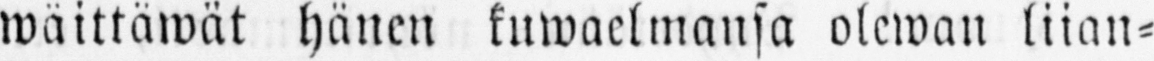wäittäwät hänen kuwaelmansa olewan liian-
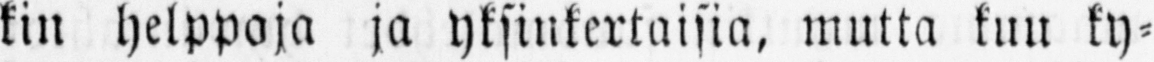kin helppoja ja yksinkertaisia, mutta kuu ky-
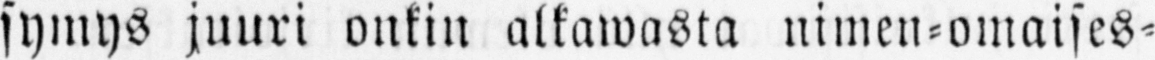symys juuri onkin alkawasta nimen-omaises-
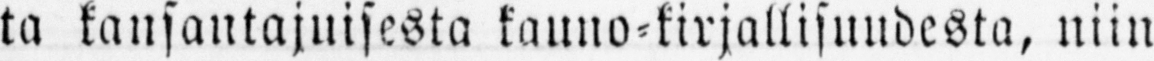ta kansantajuisesta kauno-kirjallisuudesta, niin
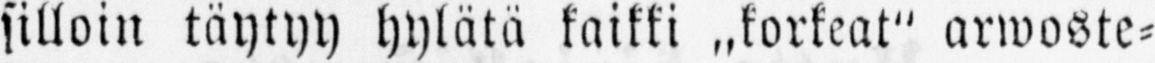silloin täytyy hylätä kaikki „korkeat" arwoste-
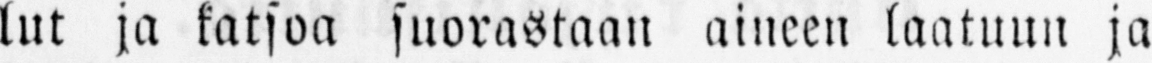lut ja katsoa suorastaan aineen laatuun ja
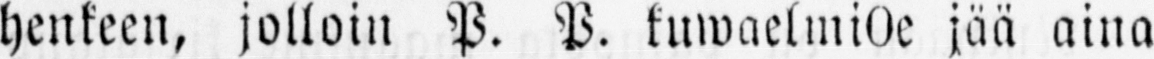henkeen, jolloin P. P. kuwaelmiOe jää aina
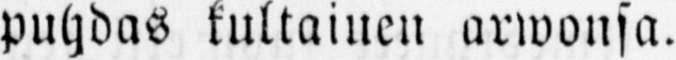puhdas kultainen arwonsa.
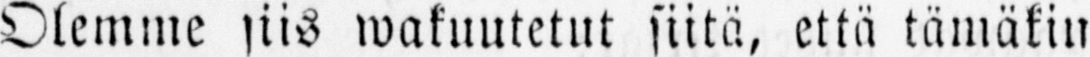Olemme siis wakuutetut siitä, että tämäkin
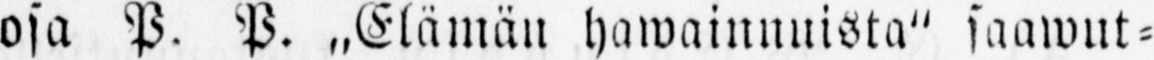osa P. P. ..Elämän hawainnuista" saawut-
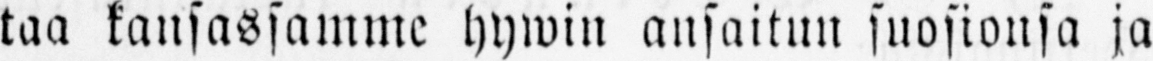taa kansassamme hywin ansaitun suosionsa ja
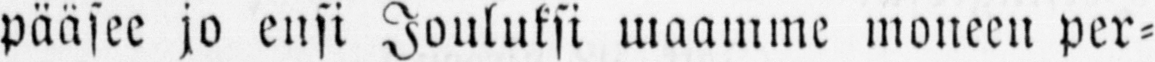pääsee jo ensi Jouluksi maamme moneen per-
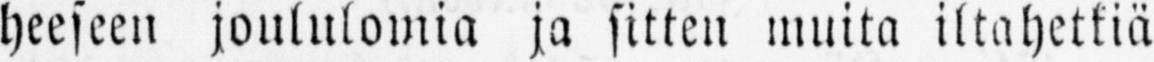heeseen joululomia ja sitten muita iltahetkiä
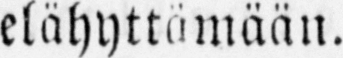elähyttämään.
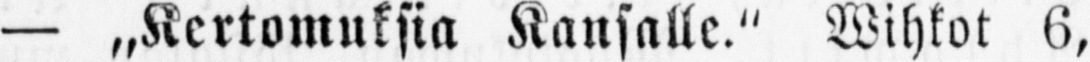— „Kertomuksia Kansalle." Wihkot 6,
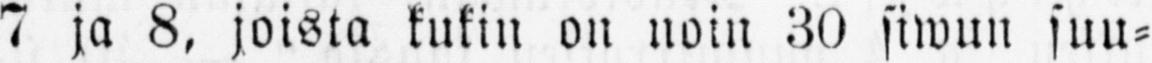7 ja 8, joista kukin on noin 30 siwun suu-
